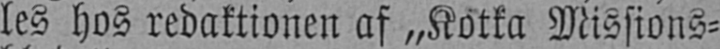les hos redaktionen af „Kotka Missions-
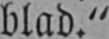blad."
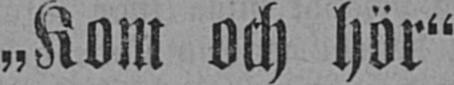"Kom och hör"
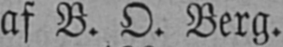af B. O. Berg.
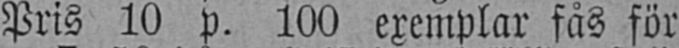Pris 10 p. 100 exemplar fås för
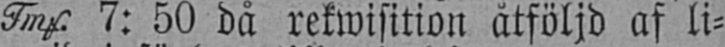Fmf. 7: 50 då rekwisition åtföljd af li-
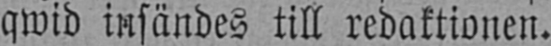qwid insändes till redaktionen.
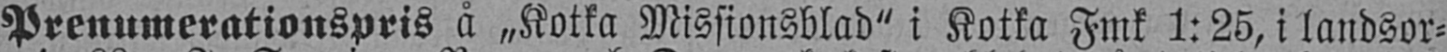Prenumerationspris å „Kotka Missionsblad" i Kotka Fmk 1:25, i landsor-
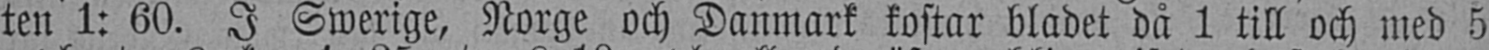ten 1: 60. I Swerige, Norge och Danmark kostar bladet då 1 till och med 5
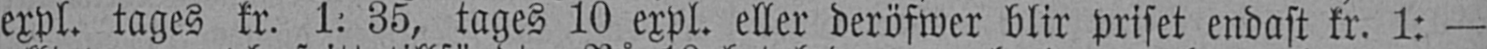expl. tages kr. 1: 35, tages 10 expl. eller deröfwer blir priset endast kr. 1: —
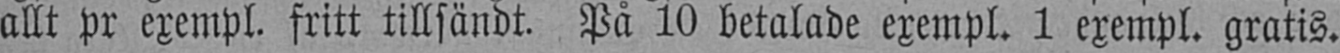allt pr exempl. fritt tillsändt. På 10 betalade exempl. 1 exempl. gratis.
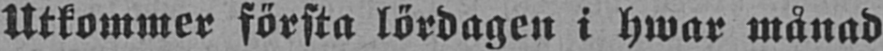Utkommer första lördagen i hwar månad
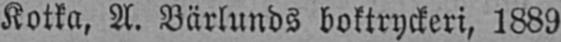Kotka, A. Bärlunds boktryckeri, 1889
